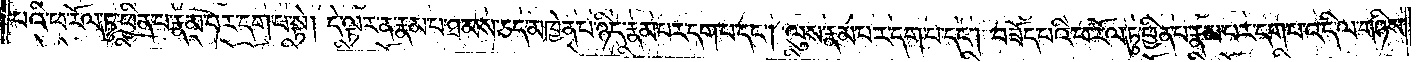པའི་ཕ་རོལ་ཏུ་ཕྱིན་པ་རྣམ་པར་དག་པ་སྟེ། དེ་ལྟར་ན་རྣམ་པ་ཐམས་ཅད་མཁྱེན་པ་ཉིད་རྣམ་པར་དག་པ་དང༌། ལུས་རྣམ་པར་དག་པ་དང༌། བཟོད་པའི་ཕ་རོལ་ཏུ་ཕྱིན་པ་རྣམ་པར་དག་པ་འདི་ལ་གཉིས་
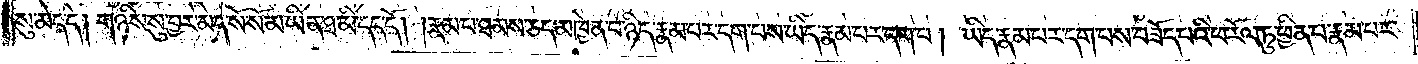སུ་མེད་དེ། གཉིས་སུ་བྱར་མེད་སོ་སོ་མ་ཡིན་ཐ་མི་དད་དོ། །རྣམ་པ་ཐམས་ཅད་མཁྱེན་པ་ཉིད་རྣམ་པར་དག་པས་ཡིད་རྣམ་པར་དག་པ། ཡིད་རྣམ་པར་དག་པས་བཟོད་པའི་ཕ་རོལ་ཏུ་ཕྱིན་པ་རྣམ་པར་
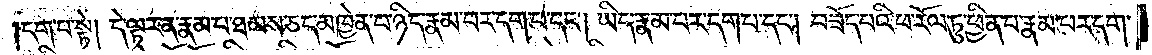དག་པ་སྟེ། དེ་ལྟར་ན་རྣམ་པ་ཐམས་ཅད་མཁྱེན་པ་ཉིད་རྣམ་པར་དག་པ་དང༌། ཡིད་རྣམ་པར་དག་པ་དང༌། བཟོད་པའི་ཕ་རོལ་ཏུ་ཕྱིན་པ་རྣམ་པར་དག་
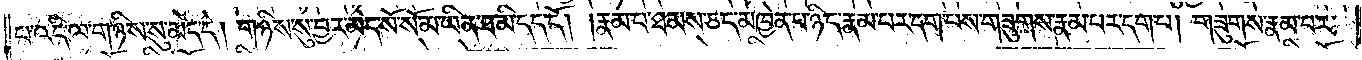པ་འདི་ལ་གཉིས་སུ་མེད་དེ། གཉིས་སུ་བྱར་མེད་སོ་སོ་མ་ཡིན་ཐ་མི་དད་དོ། །རྣམ་པ་ཐམས་ཅད་མཁྱེན་པ་ཉིད་རྣམ་པར་དག་པས་གཟུགས་རྣམ་པར་དག་པ། གཟུགས་རྣམ་པར་
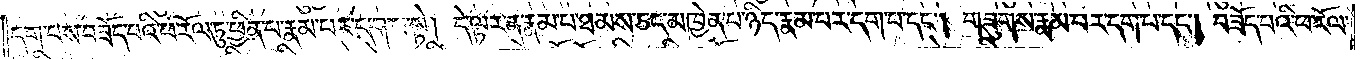དག་པས་བཟོད་པའི་ཕ་རོལ་ཏུ་ཕྱིན་པ་རྣམ་པར་དག་པ་སྟེ། དེ་ལྟར་ན་རྣམ་པ་ཐམས་ཅད་མཁྱེན་པ་ཉིད་རྣམ་པར་དག་པ་དང༌། གཟུགས་རྣམ་པར་དག་པ་དང༌། བཟོད་པའི་ཕ་རོལ་
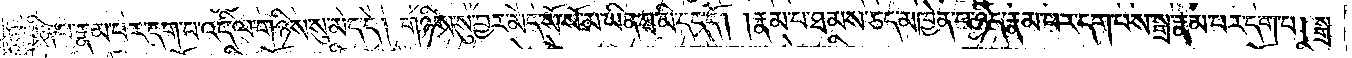ཏུ་ཕྱིན་པ་རྣམ་པར་དག་པ་འདི་ལ་གཉིས་སུ་མེད་དེ། གཉིས་སུ་བྱར་མེད་སོ་སོ་མ་ཡིན་ཐ་མི་དད་དོ། །རྣམ་པ་ཐམས་ཅད་མཁྱེན་པ་ཉིད་རྣམ་པར་དག་པས་སྒྲ་རྣམ་པར་དག་པ། སྒྲ་
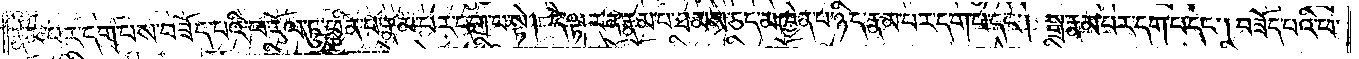རྣམ་པར་དག་པས་བཟོད་པའི་ཕ་རོལ་ཏུ་ཕྱིན་པ་རྣམ་པར་དག་པ་སྟེ། དེ་ལྟར་ན་རྣམ་པ་ཐམས་ཅད་མཁྱེན་པ་ཉིད་རྣམ་པར་དག་པ་དང༌། སྒྲ་རྣམ་པར་དག་པ་དང༌། བཟོད་པའི་ཕ་
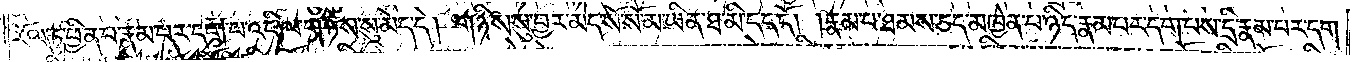རོལ་ཏུ་ཕྱིན་པ་རྣམ་པར་དག་པ་འདི་ལ་གཉིས་སུ་མེད་དེ། གཉིས་སུ་བྱར་མེད་སོ་སོ་མ་ཡིན་ཐ་མི་དད་དོ། །རྣམ་པ་ཐམས་ཅད་མཁྱེན་པ་ཉིད་རྣམ་པར་དག་པས་དྲི་རྣམ་པར་དག་
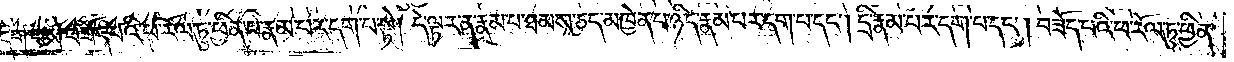པ༑ དྲི་རྣམ་པར་དག་པས་བཟོད་པའི་ཕ་རོལ་ཏུ་ཕྱིན་པ་རྣམ་པར་དག་པ་སྟེ། དེ་ལྟར་ན་རྣམ་པ་ཐམས་ཅད་མཁྱེན་པ་ཉིད་རྣམ་པར་དག་པ་དང༌། དྲི་རྣམ་པར་དག་པ་དང༌། བཟོད་པའི་ཕ་རོལ་ཏུ་ཕྱིན་
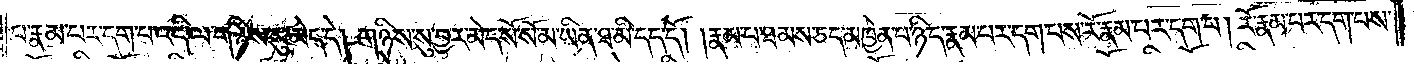པ་རྣམ་པར་དག་པ་འདི་ལ་གཉིས་སུ་མེད་དེ། གཉིས་སུ་བྱར་མེད་སོ་སོ་མ་ཡིན་ཐ་མི་དད་དོ། །རྣམ་པ་ཐམས་ཅད་མཁྱེན་པ་ཉིད་རྣམ་པར་དག་པས་རོ་རྣམ་པར་དག་པ། རོ་རྣམ་པར་དག་པས་
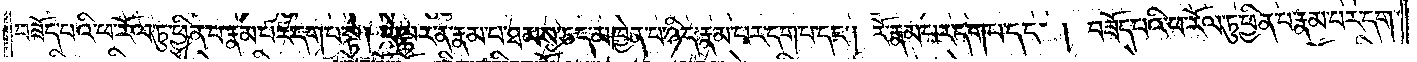བཟོད་པའི་ཕ་རོལ་ཏུ་ཕྱིན་པ་རྣམ་པར་དག་པ་སྟེ། དེ་ལྟར་ན་རྣམ་པ་ཐམས་ཅད་མཁྱེན་པ་ཉིད་རྣམ་པར་དག་པ་དང༌། རོ་རྣམ་པར་དག་པ་དང༌། བཟོད་པའི་ཕ་རོལ་ཏུ་ཕྱིན་པ་རྣམ་པར་དག་
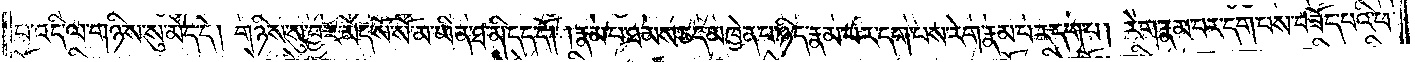པ་འདི་ལ་གཉིས་སུ་མེད་དེ། གཉིས་སུ་བྱར་མེད་སོ་སོ་མ་ཡིན་ཐ་མི་དད་དོ། །རྣམ་པ་ཐམས་ཅད་མཁྱེན་པ་ཉིད་རྣམ་པར་དག་པས་རེག་རྣམ་པར་དག་པ། རེག་རྣམ་པར་དག་པས་བཟོད་པའི་ཕ་
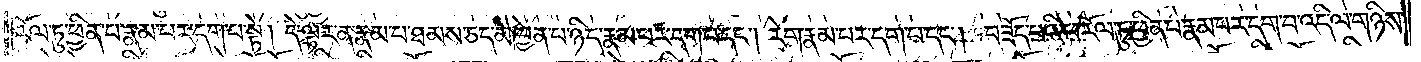རོལ་ཏུ་ཕྱིན་པ་རྣམ་པར་དག་པ་སྟེ། དེ་ལྟར་ན་རྣམ་པ་ཐམས་ཅད་མཁྱེན་པ་ཉིད་རྣམ་པར་དག་པ་དང༌། རེག་རྣམ་པར་དག་པ་དང༌། བཟོད་པའི་ཕ་རོལ་ཏུ་ཕྱིན་པ་རྣམ་པར་དག་པ་འདི་ལ་གཉིས་
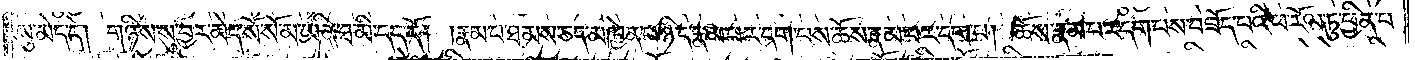སུ་མེད་དེ། གཉིས་སུ་བྱར་མེད་སོ་སོ་མ་ཡིན་ཐ་མི་དད་དོ། །རྣམ་པ་ཐམས་ཅད་མཁྱེན་པ་ཉིད་རྣམ་པར་དག་པས་ཆོས་རྣམ་པར་དག་པ། ཆོས་རྣམ་པར་དག་པས་བཟོད་པའི་ཕ་རོལ་ཏུ་ཕྱིན་པ་
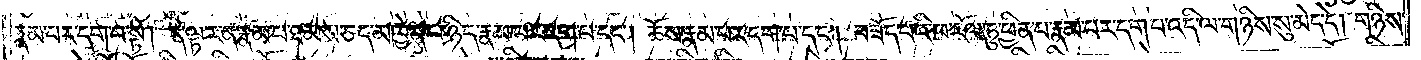རྣམ་པར་དག་པ་སྟེ། དེ་ལྟར་ན་རྣམ་པ་ཐམས་ཅད་མཁྱེན་པ་ཉིད་རྣམ་པར་དག་པ་དང༌། ཆོས་རྣམ་པར་དག་པ་དང༌། བཟོད་པའི་ཕ་རོལ་ཏུ་ཕྱིན་པ་རྣམ་པར་དག་པ་འདི་ལ་གཉིས་སུ་མེད་དེ། གཉིས་
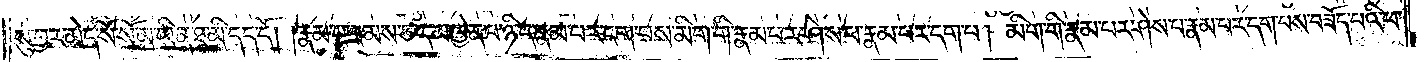སུ་བྱར་མེད་སོ་སོ་མ་ཡིན་ཐ་མི་དད་དོ། །རྣམ་པ་ཐམས་ཅད་མཁྱེན་པ་ཉིད་རྣམ་པར་དག་པས་མིག་གི་རྣམ་པར་ཤེས་པ་རྣམ་པར་དག་པ། མིག་གི་རྣམ་པར་ཤེས་པ་རྣམ་པར་དག་པས་བཟོད་པའི་ཕ་
